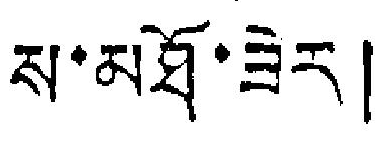ས་མཐོ་ཟེར།
